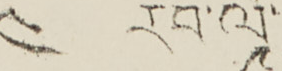༤ རབ་ལོ་
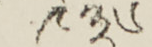༩༣༦
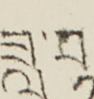ཟླ་བ་
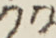༡༢
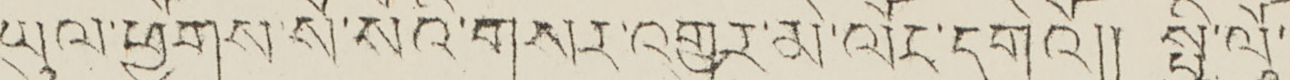ཡུལ་ཕྱོགས་སོ་སོའི་གསར་འགྱུར་མེ་ལོང་དགེའོ།། སྤྱི་ལོ་
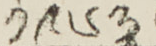༡༩༦༣
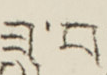ཟླ་བ་
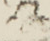༢
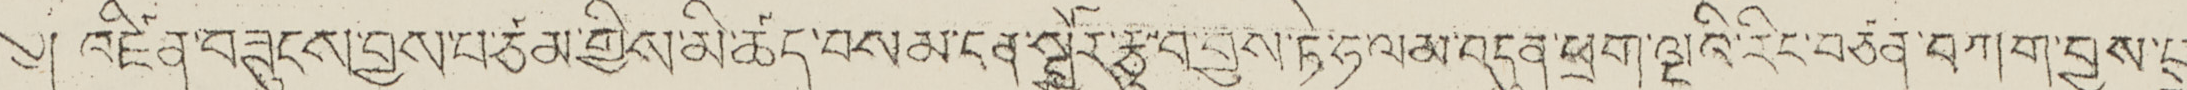༄། འཛིན་བཟུངས་བྱས་ལ་ཙམ་གྱིས་མི་ཚད་བས་མ་ངན་སྦྱོར་རྩུ་བ་བྱས་ཏེ་ཧ་ལམ་བདུན་ཕྲག་ལྔའི་རིང་བཙན་བཀག་བྱས་པ་
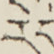རེད་
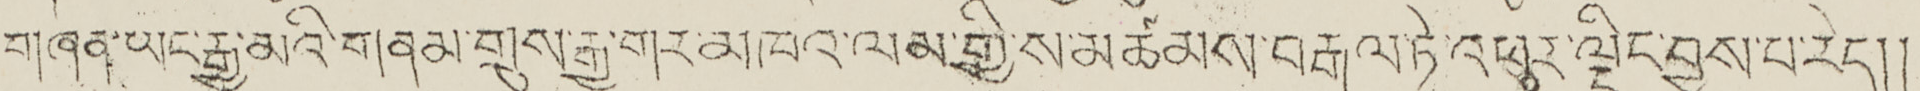གཞན་ཡང་རྒྱ་མའི་གནམ་གྲུས་རྒྱ་གར་མཁའ་ལམ་གྱི་ས་མཚམས་བརྒལ་ཏེ་འཕུར་ལྡིང་བྱས་པ་རེད།།
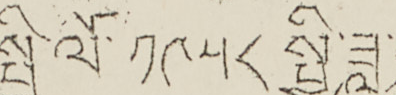སྤྱི་ལོ་ ༡༩༥༨ སྤྱི་ཟླ་
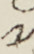༧
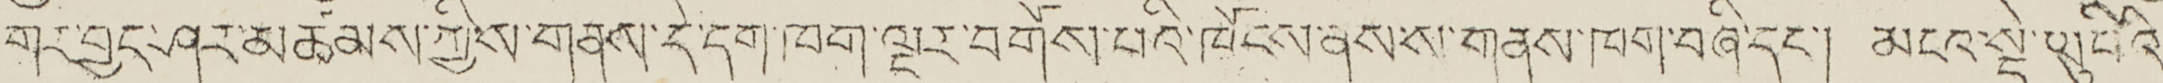གར་བྱང་ཤར་མཚམས་ཀྱིས་གནས་དེ་དག་ཁག་ལྔར་བགོས་པའི་ཁོངས་ནས་ས་གནས་ཁག་བཞི་དང་། མངའ་སྡེ་ཡུཔིའི་
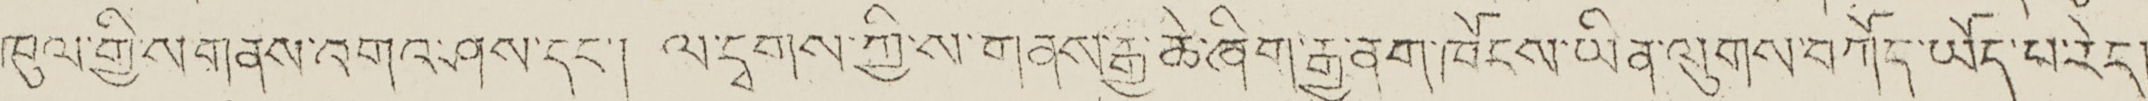ཁུལ་གྱིས་གནས་འགའ་ཤས་དང་། ལ་དྭགས་ཀྱི་ས་གནས་རྒྱ་ཆེ་ཞིག་རྒྱ་ནག་ཁོངས་ཡིན་ལུགས་བཀོད་ཡོད་པ་རེད།
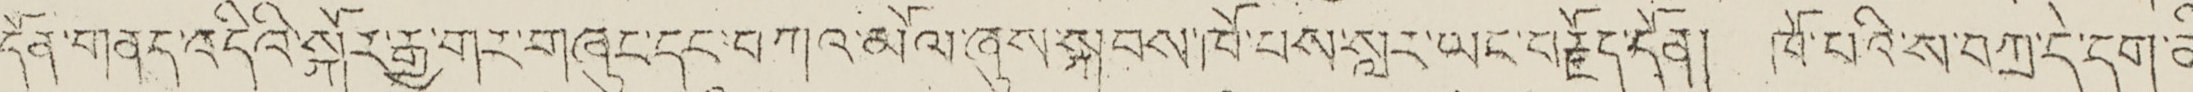དོན་གནད་འདིའི་སྐོར་རྒྱ་གར་གཞུང་དང་བཀའ་མོལ་ཞུས་སྐབས་ཁོ་པས་སླར་ཡང་བརྗོད་དོན། ཁོ་པའི་ས་བཀྲ་དེ་དག་ནི་
